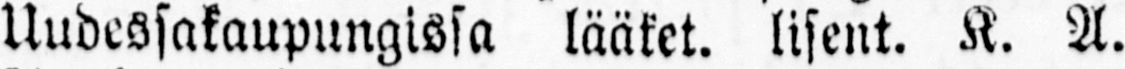Uudessakaupungissa lääket. lisent. K. A.
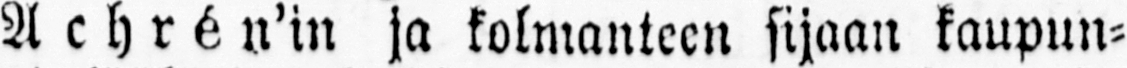Achrén'in ja kolmanteen sijaan kaupun-
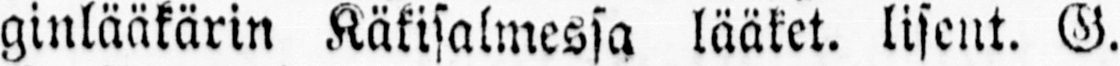ginlääkärin Käkisalmessa lääket. lisent. G.
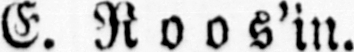E. Roos'in.
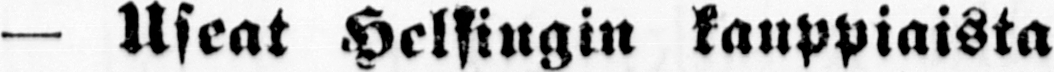— Useat Helsingin kauppiaista
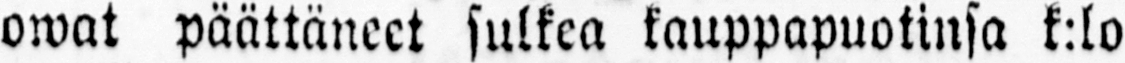owat päättäneet sulkea kauppapuotinsa k:lo
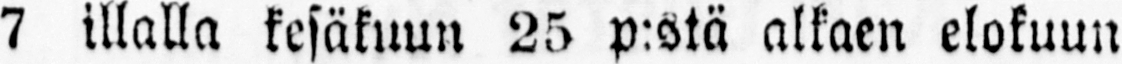7 illalla kesäkuun 25 p:stä alkaen elokuun
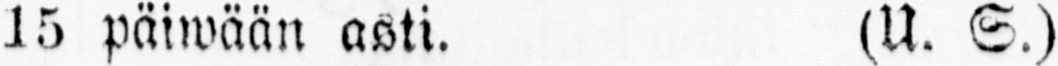15 päiwään asti. (U. S.)
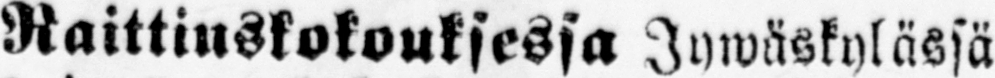— Raittiuskokouksessa Jywäskylässä
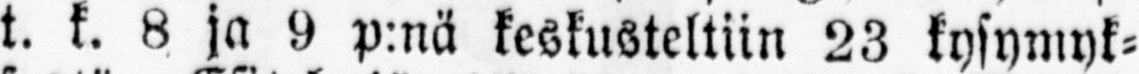t. k. 8 ja 9 p:nä keskusteltiin 23 kysymyk-
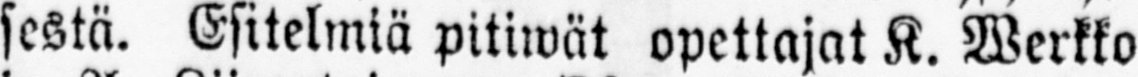sestä. Esitelmiä pitiwät opettajat K. Werkko
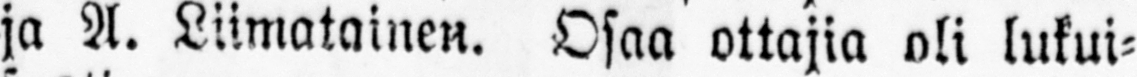ja A. Liimatainen. Osaa ottajia oli lukui-
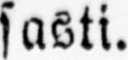sasti.
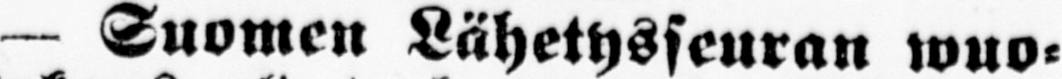— Suomen Lähetysseuran wuo-
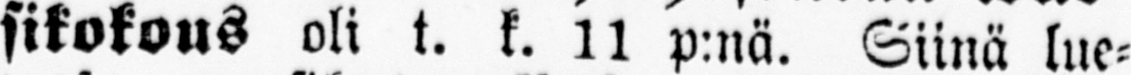sikokous oli t. k. 11 p:nä. Siinä lue-
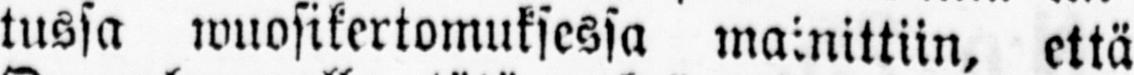tussa wuosikertomuksessa mainittiin, että
